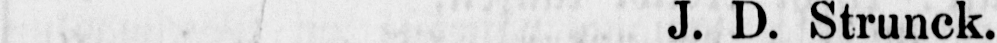J. D. Strunck.
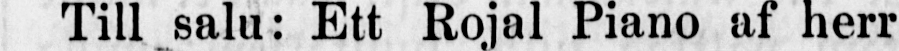Till salu: Ett Rojal Piano af herr Gran-
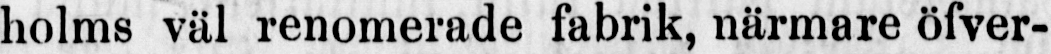holms väl renomerade fabrik närmare öfver-
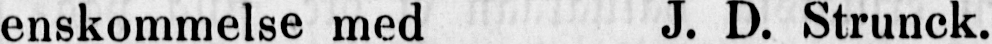enskommelse med J. D. Strunck.
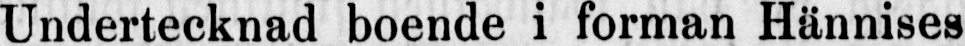Undertecknad boende i forman Hännises
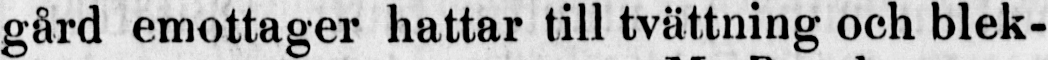gård emottager hattar till tvättning och blek-
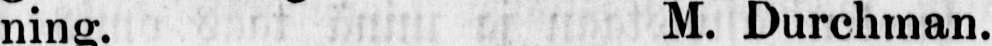ning. M. Durchman.
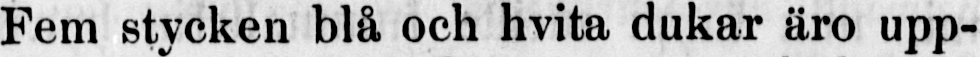Fem stycken blå och hvita dukar äro upp-
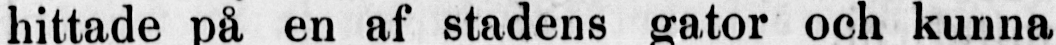hittade på en af stadens gator och kunna
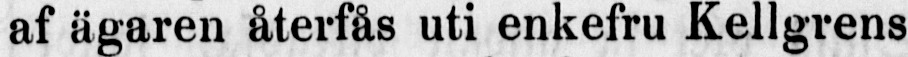af ägaren återfås uti enkefru Kellgrens gård,
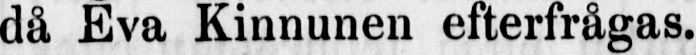då Eva Kinnunen efterfrågas.
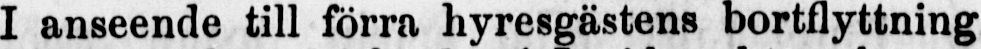I anseende till förra, hyresgästens bortflyttning
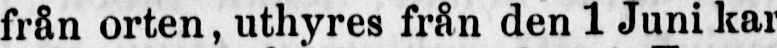från orten, uthyres från den 1 Juni karakters-bygg-
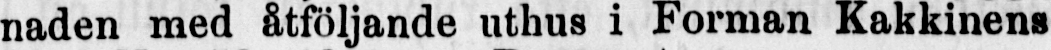naden med åtföljande uthus i Forman Kakkinens
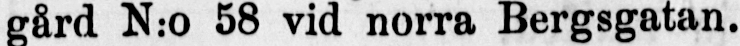gård N:o 58 vid norra Bergsgatan.
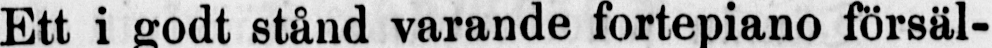Ett i godt stånd varande fortepiano försäl-
